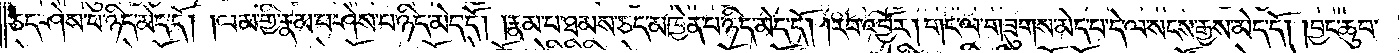ཅད་ཤེས་པ་ཉིད་མེད་དོ། །ལམ་གྱི་རྣམ་པ་ཤེས་པ་ཉིད་མེད་དོ། །རྣམ་པ་ཐམས་ཅད་མཁྱེན་པ་ཉིད་མེད་དོ། །རབ་འབྱོར། གང་ལ་གཟུགས་མེད་པ་དེ་ལ་སངས་རྒྱས་མེད་དོ། །བྱང་ཆུབ་
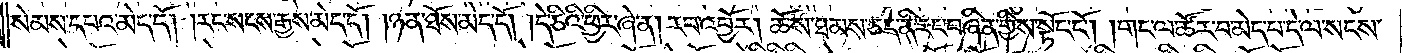སེམས་དཔའ་མེད་དོ། །རང་སངས་རྒྱས་མེད་དོ། །ཉན་ཐོས་མེད་དོ། །དེ་ཅིའི་ཕྱིར་ཞེ་ན། རབ་འབྱོར། ཆོས་ཐམས་ཅད་ནི་རང་བཞིན་གྱིས་སྟོང་ངོ༌། །གང་ལ་ཚོར་བ་མེད་པ་དེ་ལ་སངས་
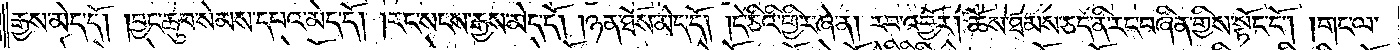རྒྱས་མེད་དོ། །བྱང་ཆུབ་སེམས་དཔའ་མེད་དོ། །རང་སངས་རྒྱས་མེད་དོ། །ཉན་ཐོས་མེད་དོ། །དེ་ཅིའི་ཕྱིར་ཞེ་ན། རབ་འབྱོར། ཆོས་ཐམས་ཅད་ནི་རང་བཞིན་གྱིས་སྟོང་ངོ༌། །གང་ལ་
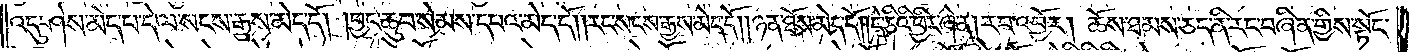འདུ་ཤེས་མེད་པ་དེ་ལ་སངས་རྒྱས་མེད་དོ། །བྱང་ཆུབ་སེམས་དཔའ་མེད་དོ། །རང་སངས་རྒྱས་མེད་དོ། །ཉན་ཐོས་མེད་དོ། །དེ་ཅིའི་ཕྱིར་ཞེ་ན། རབ་འབྱོར། ཆོས་ཐམས་ཅད་ནི་རང་བཞིན་གྱིས་སྟོང་
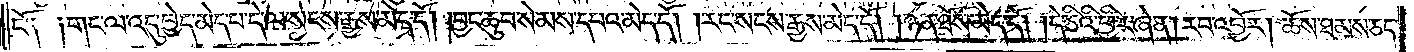ངོ༑ ༑གང་ལ་འདུ་བྱེད་མེད་པ་དེ་ལ་སངས་རྒྱས་མེད་དོ། །བྱང་ཆུབ་སེམས་དཔའ་མེད་དོ། །རང་སངས་རྒྱས་མེད་དོ། །ཉན་ཐོས་མེད་དོ། །དེ་ཅིའི་ཕྱིར་ཞེ་ན། རབ་འབྱོར། ཆོས་ཐམས་ཅད་
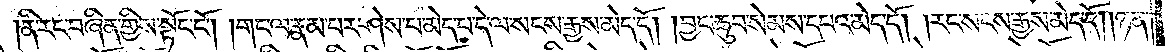ནི་རང་བཞིན་གྱིས་སྟོང་ངོ༌། །གང་ལ་རྣམ་པར་ཤེས་པ་མེད་པ་དེ་ལ་སངས་རྒྱས་མེད་དོ། །བྱང་ཆུབ་སེམས་དཔའ་མེད་དོ། །རང་སངས་རྒྱས་མེད་དོ། །ཉན་
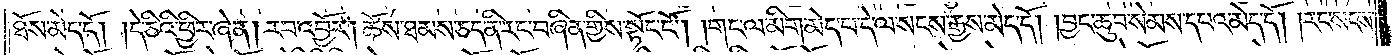ཐོས་མེད་དོ། །དེ་ཅིའི་ཕྱིར་ཞེ་ན། རབ་འབྱོར། ཆོས་ཐམས་ཅད་ནི་རང་བཞིན་གྱིས་སྟོང་ངོ༌། །གང་ལ་མིག་མེད་པ་དེ་ལ་སངས་རྒྱས་མེད་དོ། །བྱང་ཆུབ་སེམས་དཔའ་མེད་དོ། །རང་སངས་
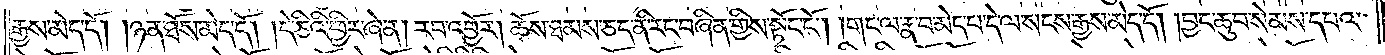རྒྱས་མེད་དོ། །ཉན་ཐོས་མེད་དོ། །དེ་ཅིའི་ཕྱིར་ཞེ་ན། རབ་འབྱོར། ཆོས་ཐམས་ཅད་ནི་རང་བཞིན་གྱིས་སྟོང་ངོ༌། །གང་ལ་རྣ་བ་མེད་པ་དེ་ལ་སངས་རྒྱས་མེད་དོ། །བྱང་ཆུབ་སེམས་དཔའ་
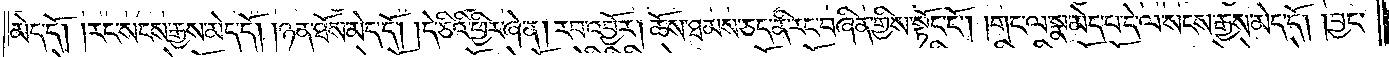མེད་དོ། །རང་སངས་རྒྱས་མེད་དོ། །ཉན་ཐོས་མེད་དོ། །དེ་ཅིའི་ཕྱིར་ཞེ་ན། རབ་འབྱོར། ཆོས་ཐམས་ཅད་ནི་རང་བཞིན་གྱིས་སྟོང་ངོ༌། །གང་ལ་སྣ་མེད་པ་དེ་ལ་སངས་རྒྱས་མེད་དོ། །བྱང་
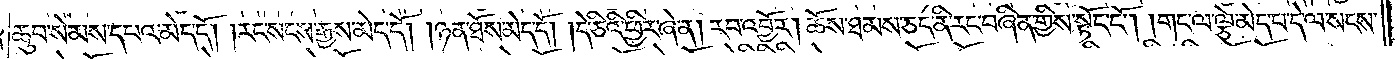ཆུབ་སེམས་དཔའ་མེད་དོ། །རང་སངས་རྒྱས་མེད་དོ། །ཉན་ཐོས་མེད་དོ། །དེ་ཅིའི་ཕྱིར་ཞེ་ན། རབ་འབྱོར། ཆོས་ཐམས་ཅད་ནི་རང་བཞིན་གྱིས་སྟོང་ངོ༌། །གང་ལ་ལྕེ་མེད་པ་དེ་ལ་སངས་
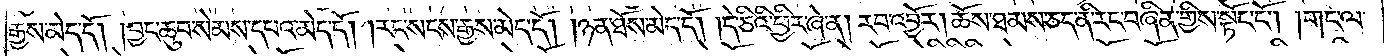རྒྱས་མེད་དོ། །བྱང་ཆུབ་སེམས་དཔའ་མེད་དོ། །རང་སངས་རྒྱས་མེད་དོ། །ཉན་ཐོས་མེད་དོ། །དེ་ཅིའི་ཕྱིར་ཞེ་ན། རབ་འབྱོར། ཆོས་ཐམས་ཅད་ནི་རང་བཞིན་གྱིས་སྟོང་ངོ༌། །གང་ལ་
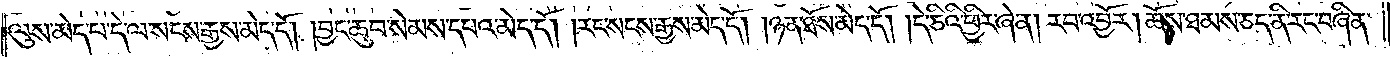ལུས་མེད་པ་དེ་ལ་སངས་རྒྱས་མེད་དོ། །བྱང་ཆུབ་སེམས་དཔའ་མེད་དོ། །རང་སངས་རྒྱས་མེད་དོ། །ཉན་ཐོས་མེད་དོ། །དེ་ཅིའི་ཕྱིར་ཞེ་ན། རབ་འབྱོར། ཆོས་ཐམས་ཅད་ནི་རང་བཞིན་
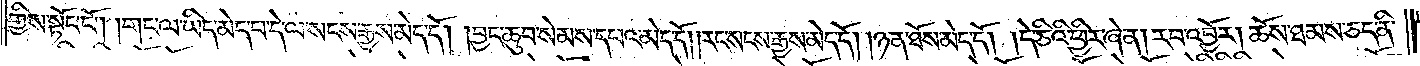གྱིས་སྟོང་ངོ༌། །གང་ལ་ཡིད་མེད་པ་དེ་ལ་སངས་རྒྱས་མེད་དོ། །བྱང་ཆུབ་སེམས་དཔའ་མེད་དོ། །རང་སངས་རྒྱས་མེད་དོ། །ཉན་ཐོས་མེད་དོ། །དེ་ཅིའི་ཕྱིར་ཞེ་ན། རབ་འབྱོར། ཆོས་ཐམས་ཅད་ནི་
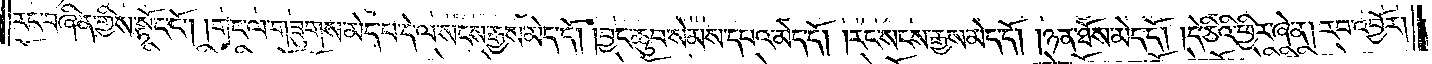རང་བཞིན་གྱིས་སྟོང་ངོ༌། །གང་ལ་གཟུགས་མེད་པ་དེ་ལ་སངས་རྒྱས་མེད་དོ། །བྱང་ཆུབ་སེམས་དཔའ་མེད་དོ། །རང་སངས་རྒྱས་མེད་དོ། །ཉན་ཐོས་མེད་དོ། །དེ་ཅིའི་ཕྱིར་ཞེ་ན། རབ་འབྱོར།
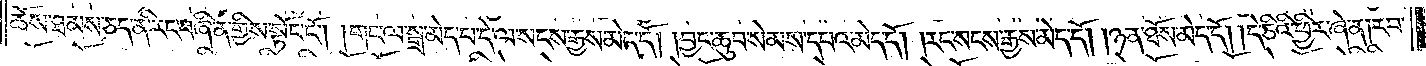ཆོས་ཐམས་ཅད་ནི་རང་བཞིན་གྱིས་སྟོང་ངོ༌། །གང་ལ་སྒྲ་མེད་པ་དེ་ལ་སངས་རྒྱས་མེད་དོ། །བྱང་ཆུབ་སེམས་དཔའ་མེད་དོ། །རང་སངས་རྒྱས་མེད་དོ། །ཉན་ཐོས་མེད་དོ། །དེ་ཅིའི་ཕྱིར་ཞེ་ན། རབ་
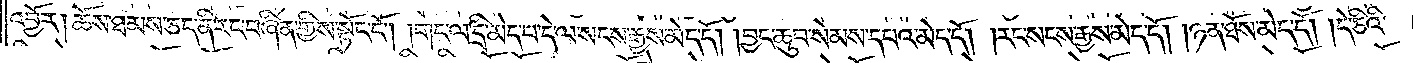འབྱོར། ཆོས་ཐམས་ཅད་ནི་རང་བཞིན་གྱིས་སྟོང་ངོ༌། །གང་ལ་དྲི་མེད་པ་དེ་ལ་སངས་རྒྱས་མེད་དོ། །བྱང་ཆུབ་སེམས་དཔའ་མེད་དོ། །རང་སངས་རྒྱས་མེད་དོ། །ཉན་ཐོས་མེད་དོ། །དེ་ཅིའི་
